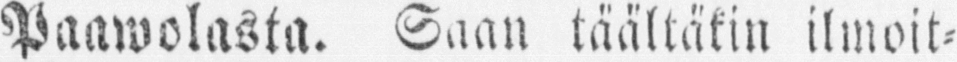Paawolasta. Saan täältäkin ilmoit-
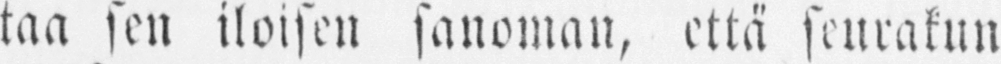taa sen iloisen sanoman, että seurakun-
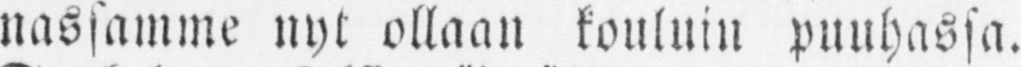nassamme nyt ollaan kouluin puuhassa.
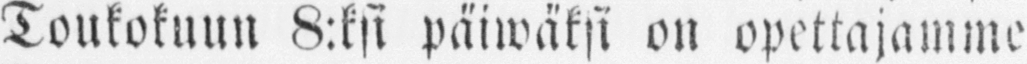Toukokuun 8:ksi päiwäksi on opettajamme
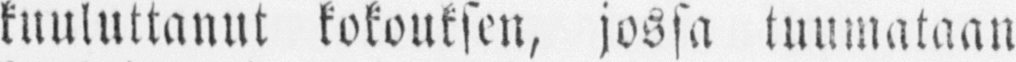kuuluttanut kokouksen, jossa tuumataan
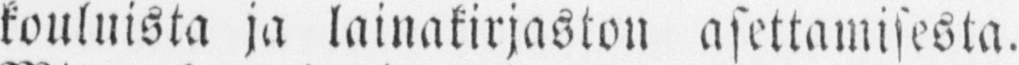kouluista ja lainakirjaston asettamisesta.
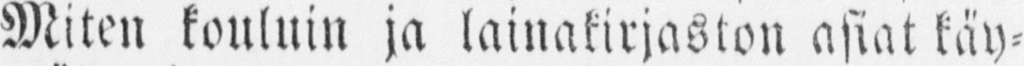Miten kouluin ja lainakirjaston asiat käy-
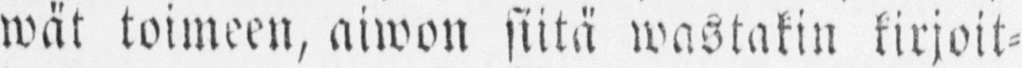wät toimeen, aiwon siitä wastakin kirjoit-
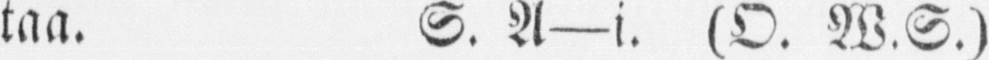taa. S. A—i. (O. W.S.)
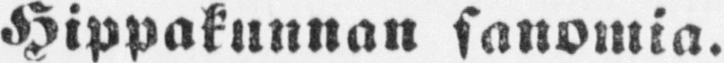Hippakunnan sanomia.
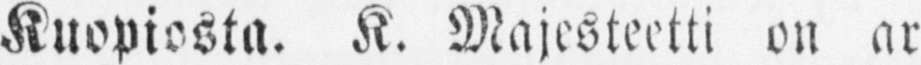Kuopiosta. K. Majesteetti on ar-
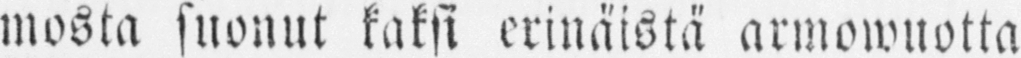mosta suonut kaksi erinäistä armowuotta
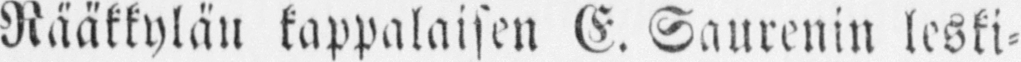Rääkkylän kappalaisen E. Saurenin leski-
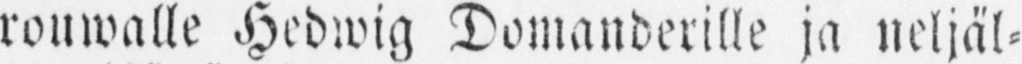rouwalle Hedwig Domanderille ja neljäl-
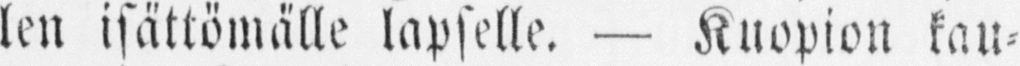len isättömälle lapselle. — Kuopion kau-
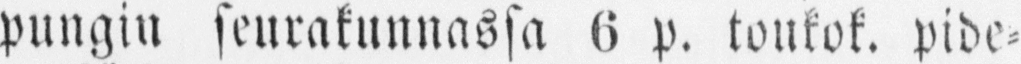pungin seurakunnassa 6 p. toukok. pide-
